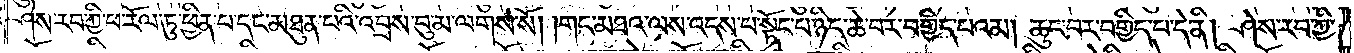ཤེས་རབ་ཀྱི་ཕ་རོལ་ཏུ་ཕྱིན་པ་དང་མཐུན་པའི་འབྲས་བུ་མ་ལགས་སོ། །གང་མཐའ་ལས་འདས་པ་སྟོང་པ་ཉིད་ཆེ་བར་བགྱིད་པའམ། ཆུང་བར་བགྱིད་པ་དེ་ནི། ཤེས་རབ་ཀྱི་
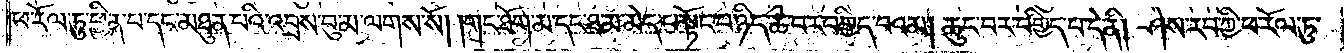ཕ་རོལ་ཏུ་ཕྱིན་པ་དང་མཐུན་པའི་འབྲས་བུ་མ་ལགས་སོ། །གང་ཐོག་མ་དང་ཐ་མ་མེད་པ་སྟོང་པ་ཉིད་ཆེ་བར་བགྱིད་པའམ། ཆུང་བར་བགྱིད་པ་དེ་ནི། ཤེས་རབ་ཀྱི་ཕ་རོལ་ཏུ་
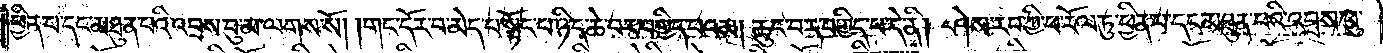ཕྱིན་པ་དང་མཐུན་པའི་འབྲས་བུ་མ་ལགས་སོ། །གང་དོར་བ་མེད་པ་སྟོང་པ་ཉིད་ཆེ་བར་བགྱིད་པའམ། ཆུང་བར་བགྱིད་པ་དེ་ནི། ཤེས་རབ་ཀྱི་ཕ་རོལ་ཏུ་ཕྱིན་པ་དང་མཐུན་པའི་འབྲས་བུ་
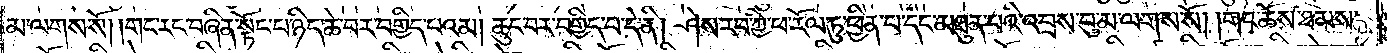མ་ལགས་སོ། །གང་རང་བཞིན་སྟོང་པ་ཉིད་ཆེ་བར་བགྱིད་པའམ། ཆུང་བར་བགྱིད་པ་དེ་ནི། ཤེས་རབ་ཀྱི་ཕ་རོལ་ཏུ་ཕྱིན་པ་དང་མཐུན་པའི་འབྲས་བུ་མ་ལགས་སོ། །གང་ཆོས་ཐམས་
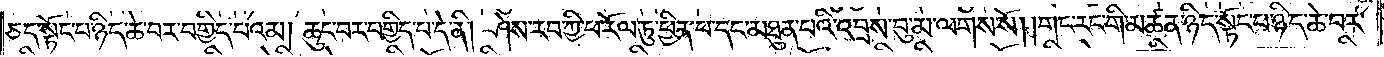ཅད་སྟོང་པ་ཉིད་ཆེ་བར་བགྱིད་པའམ། ཆུང་བར་བགྱིད་པ་དེ་ནི། ཤེས་རབ་ཀྱི་ཕ་རོལ་ཏུ་ཕྱིན་པ་དང་མཐུན་པའི་འབྲས་བུ་མ་ལགས་སོ། །གང་རང་གི་མཚན་ཉིད་སྟོང་པ་ཉིད་ཆེ་བར་
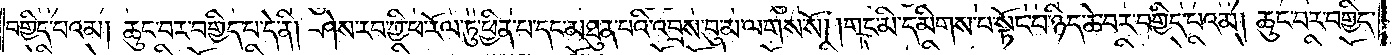བགྱིད་པའམ། ཆུང་བར་བགྱིད་པ་དེ་ནི། ཤེས་རབ་ཀྱི་ཕ་རོལ་ཏུ་ཕྱིན་པ་དང་མཐུན་པའི་འབྲས་བུ་མ་ལགས་སོ། །གང་མི་དམིགས་པ་སྟོང་པ་ཉིད་ཆེ་བར་བགྱིད་པའམ། ཆུང་བར་བགྱིད་
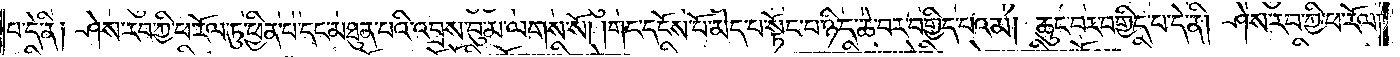པ་དེ་ནི༑ ཤེས་རབ་ཀྱི་ཕ་རོལ་ཏུ་ཕྱིན་པ་དང་མཐུན་པའི་འབྲས་བུ་མ་ལགས་སོ། །གང་དངོས་པོ་མེད་པ་སྟོང་པ་ཉིད་ཆེ་བར་བགྱིད་པའམ། ཆུང་བར་བགྱིད་པ་དེ་ནི། ཤེས་རབ་ཀྱི་ཕ་རོལ་
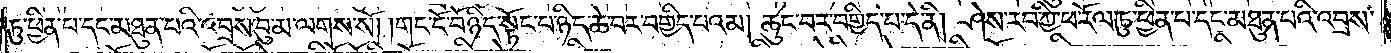ཏུ་ཕྱིན་པ་དང་མཐུན་པའི་འབྲས་བུ་མ་ལགས་སོ། །གང་ངོ་བོ་ཉིད་སྟོང་པ་ཉིད་ཆེ་བར་བགྱིད་པའམ། ཆུང་བར་བགྱིད་པ་དེ་ནི། ཤེས་རབ་ཀྱི་ཕ་རོལ་ཏུ་ཕྱིན་པ་དང་མཐུན་པའི་འབྲས་
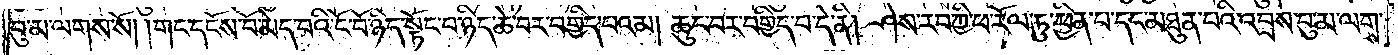བུ་མ་ལགས་སོ། །གང་དངོས་པོ་མེད་པའི་ངོ་བོ་ཉིད་སྟོང་པ་ཉིད་ཆེ་བར་བགྱིད་པའམ། ཆུང་བར་བགྱིད་པ་དེ་ནི། ཤེས་རབ་ཀྱི་ཕ་རོལ་ཏུ་ཕྱིན་པ་དང་མཐུན་པའི་འབྲས་བུ་མ་ལགས་
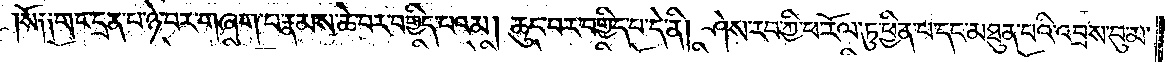སོ༑ ༑གང་དྲན་པ་ཉེ་བར་གཞག་པ་རྣམས་ཆེ་བར་བགྱིད་པའམ། ཆུང་བར་བགྱིད་པ་དེ་ནི། ཤེས་རབ་ཀྱི་ཕ་རོལ་ཏུ་ཕྱིན་པ་དང་མཐུན་པའི་འབྲས་བུ་མ་
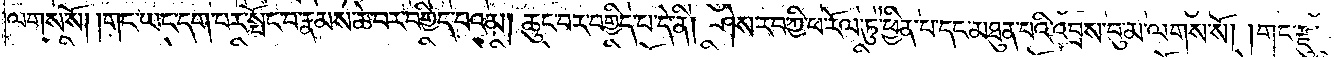ལགས་སོ། །གང་ཡང་དག་པར་སྤོང་བ་རྣམས་ཆེ་བར་བགྱིད་པའམ། ཆུང་བར་བགྱིད་པ་དེ་ནི། ཤེས་རབ་ཀྱི་ཕ་རོལ་ཏུ་ཕྱིན་པ་དང་མཐུན་པའི་འབྲས་བུ་མ་ལགས་སོ། །གང་རྫུ་
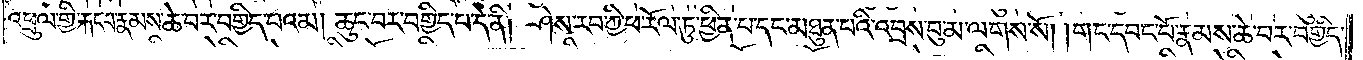འཕྲུལ་གྱི་རྐང་པ་རྣམས་ཆེ་བར་བགྱིད་པའམ། ཆུང་བར་བགྱིད་པ་དེ་ནི། ཤེས་རབ་ཀྱི་ཕ་རོལ་ཏུ་ཕྱིན་པ་དང་མཐུན་པའི་འབྲས་བུ་མ་ལགས་སོ། །གང་དབང་པོ་རྣམས་ཆེ་བར་བགྱིད་
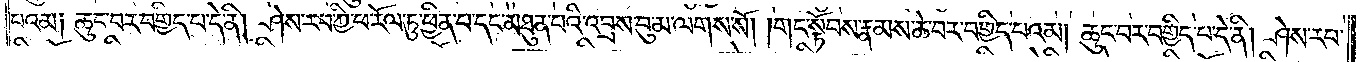པའམ༑ ཆུང་བར་བགྱིད་པ་དེ་ནི། ཤེས་རབ་ཀྱི་ཕ་རོལ་ཏུ་ཕྱིན་པ་དང་མཐུན་པའི་འབྲས་བུ་མ་ལགས་སོ། །གང་སྟོབས་རྣམས་ཆེ་བར་བགྱིད་པའམ། ཆུང་བར་བགྱིད་པ་དེ་ནི། ཤེས་རབ་
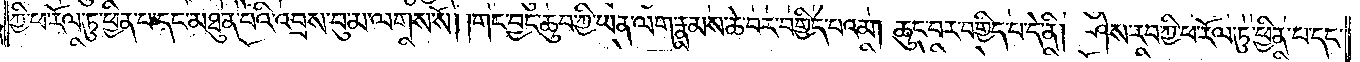ཀྱི་ཕ་རོལ་ཏུ་ཕྱིན་པ་དང་མཐུན་པའི་འབྲས་བུ་མ་ལགས་སོ། །གང་བྱང་ཆུབ་ཀྱི་ཡན་ལག་རྣམས་ཆེ་བར་བགྱིད་པའམ། ཆུང་བར་བགྱིད་པ་དེ་ནི། ཤེས་རབ་ཀྱི་ཕ་རོལ་ཏུ་ཕྱིན་པ་དང་
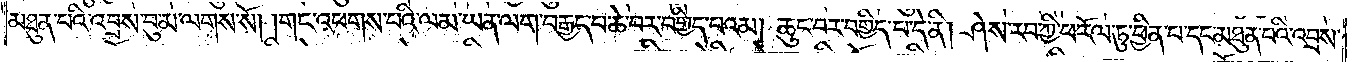མཐུན་པའི་འབྲས་བུ་མ་ལགས་སོ། །གང་འཕགས་པའི་ལམ་ཡན་ལག་བརྒྱད་པ་ཆེ་བར་བགྱིད་པའམ། ཆུང་བར་བགྱིད་པ་དེ་ནི། ཤེས་རབ་ཀྱི་ཕ་རོལ་ཏུ་ཕྱིན་པ་དང་མཐུན་པའི་འབྲས་
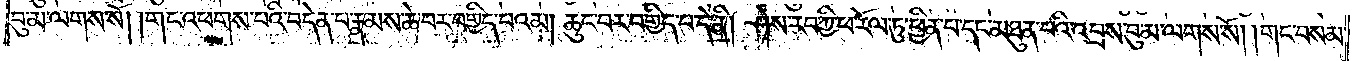བུ་མ་ལགས་སོ། །གང་འཕགས་པའི་བདེན་པ་རྣམས་ཆེ་བར་བགྱིད་པའམ། ཆུང་བར་བགྱིད་པ་དེ་ནི། ཤེས་རབ་ཀྱི་ཕ་རོལ་ཏུ་ཕྱིན་པ་དང་མཐུན་པའི་འབྲས་བུ་མ་ལགས་སོ། །གང་བསམ་
